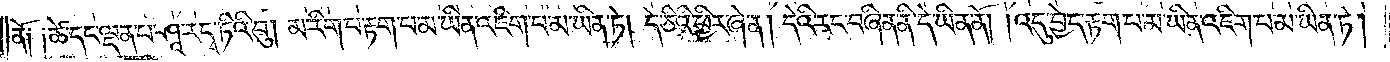ནོ༑ ༑ཚེ་དང་ལྡན་པ་ཤཱ་ར་དྭ་ཏིའི་བུ། མ་རིག་པ་རྟག་པ་མ་ཡིན་འཇིག་པ་མ་ཡིན་ཏེ། དེ་ཅིའི་ཕྱིར་ཞེ་ན། དེའི་རང་བཞིན་ནི་དེ་ཡིན་ནོ། །འདུ་བྱེད་རྟག་པ་མ་ཡིན་འཇིག་པ་མ་ཡིན་ཏེ།
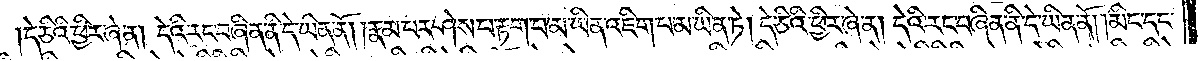དེ་ཅིའི་ཕྱིར་ཞེ་ན། དེའི་རང་བཞིན་ནི་དེ་ཡིན་ནོ། །རྣམ་པར་ཤེས་པ་རྟག་པ་མ་ཡིན་འཇིག་པ་མ་ཡིན་ཏེ། དེ་ཅིའི་ཕྱིར་ཞེ་ན། དེའི་རང་བཞིན་ནི་དེ་ཡིན་ནོ། །མིང་དང་
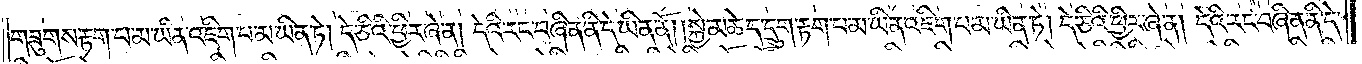གཟུགས་རྟག་པ་མ་ཡིན་འཇིག་པ་མ་ཡིན་ཏེ། དེ་ཅིའི་ཕྱིར་ཞེ་ན། དེའི་རང་བཞིན་ནི་དེ་ཡིན་ནོ། །སྐྱེ་མཆེད་དྲུག་རྟག་པ་མ་ཡིན་འཇིག་པ་མ་ཡིན་ཏེ། དེ་ཅིའི་ཕྱིར་ཞེ་ན། དེའི་རང་བཞིན་ནི་དེ་
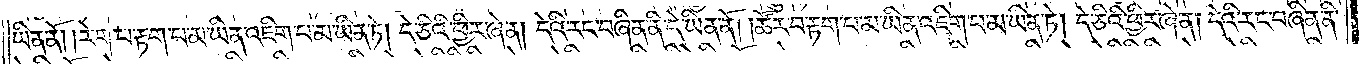ཡིན་ནོ། །རེག་པ་རྟག་པ་མ་ཡིན་འཇིག་པ་མ་ཡིན་ཏེ། དེ་ཅིའི་ཕྱིར་ཞེ་ན། དེའི་རང་བཞིན་ནི་དེ་ཡིན་ནོ། །ཚོར་བ་རྟག་པ་མ་ཡིན་འཇིག་པ་མ་ཡིན་ཏེ། དེ་ཅིའི་ཕྱིར་ཞེ་ན། དེའི་རང་བཞིན་ནི་
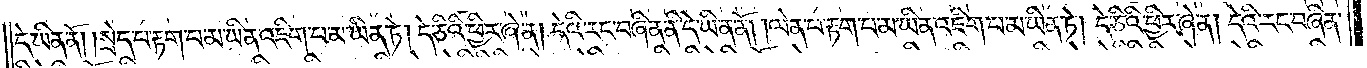དེ་ཡིན་ནོ། །སྲེད་པ་རྟག་པ་མ་ཡིན་འཇིག་པ་མ་ཡིན་ཏེ། དེ་ཅིའི་ཕྱིར་ཞེ་ན། དེའི་རང་བཞིན་ནི་དེ་ཡིན་ནོ། །ལེན་པ་རྟག་པ་མ་ཡིན་འཇིག་པ་མ་ཡིན་ཏེ། དེ་ཅིའི་ཕྱིར་ཞེ་ན། དེའི་རང་བཞིན་
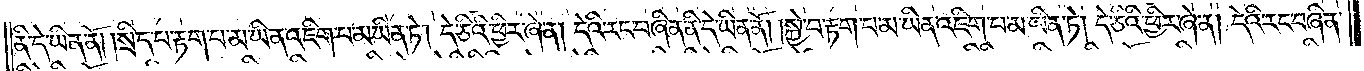ནི་དེ་ཡིན་ནོ། །སྲིད་པ་རྟག་པ་མ་ཡིན་འཇིག་པ་མ་ཡིན་ཏེ། དེ་ཅིའི་ཕྱིར་ཞེ་ན། དེའི་རང་བཞིན་ནི་དེ་ཡིན་ནོ། སྐྱེ་བ་རྟག་པ་མ་ཡིན་འཇིག་པ་མ་ཡིན་ཏེ། དེ་ཅིའི་ཕྱིར་ཞེ་ན། དེའི་རང་བཞིན་
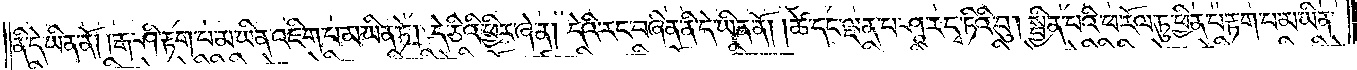ནི་དེ་ཡིན་ནོ། །རྒ་ཤི་རྟག་པ་མ་ཡིན་འཇིག་པ་མ་ཡིན་ཏེ། དེ་ཅིའི་ཕྱིར་ཞེ་ན། དེའི་རང་བཞིན་ནི་དེ་ཡིན་ནོ། །ཚ་དང་ལྡན་པ་ཤཱ་ར་དྭ་ཏིའི་བུ། སྦྱིན་པའི་ཕ་རོལ་ཏུ་ཕྱིན་པ་རྟག་པ་མ་ཡིན་
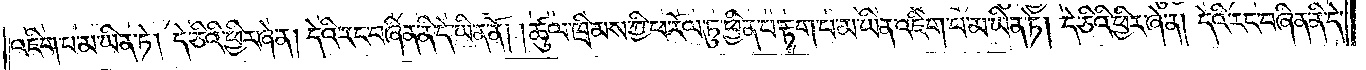འཇིག་པ་མ་ཡིན་ཏེ། དེ་ཅིའི་ཕྱིར་ཞེ་ན། དེའི་རང་བཞིན་ནི་དེ་ཡིན་ནོ། །ཚུལ་ཁྲིམས་ཀྱི་ཕ་རོལ་ཏུ་ཕྱིན་པ་རྟག་པ་མ་ཡིན་འཇིག་པ་མ་ཡིན་ཏེ། དེ་ཅིའི་ཕྱིར་ཞེ་ན། དེའི་རང་བཞིན་ནི་དེ་
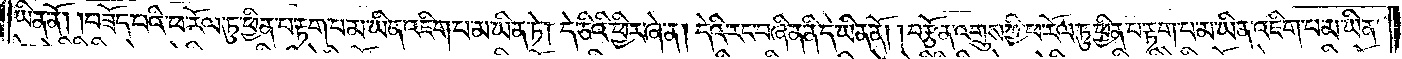ཡིན་ནོ། །བཟོད་པའི་ཕ་རོལ་ཏུ་ཕྱིན་པ་རྟག་པ་མ་ཡིན་འཇིག་པ་མ་ཡིན་ཏེ། དེ་ཅིའི་ཕྱིར་ཞེ་ན། དེའི་རང་བཞིན་ནི་དེ་ཡིན་ནོ། བརྩོན་འགྲུས་ཀྱི་ཕ་རོལ་ཏུ་ཕྱིན་པ་རྟག་པ་མ་ཡིན་འཇིག་པ་མ་ཡིན་
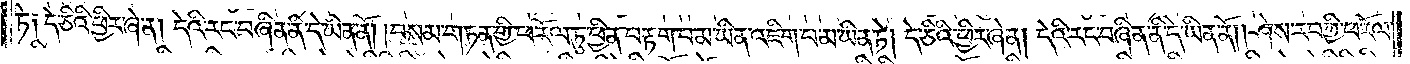ཏེ༑ དེ་ཅིའི་ཕྱིར་ཞེ་ན། དེའི་རང་བཞིན་ནི་དེ་ཡིན་ནོ། །བསམ་གཏན་གྱི་ཕ་རོལ་ཏུ་ཕྱིན་པ་རྟག་པ་མ་ཡིན་འཇིག་པ་མ་ཡིན་ཏེ། དེ་ཅིའི་ཕྱིར་ཞེ་ན། དེའི་རང་བཞིན་ནི་དེ་ཡིན་ནོ། །ཤེས་རབ་ཀྱི་ཕ་རོལ་
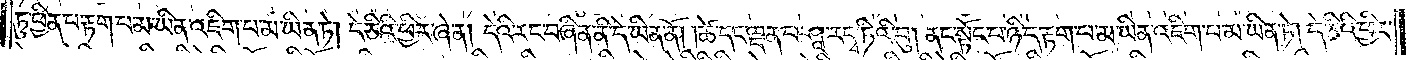ཏུ་ཕྱིན་པ་རྟག་པ་མ་ཡིན་འཇིག་པ་མ་ཡིན་ཏེ། དེ་ཅིའི་ཕྱིར་ཞེ་ན། དེའི་རང་བཞིན་ནི་དེ་ཡིན་ནོ། །ཚེ་དང་ལྡན་པ་ཤཱ་ར་དྭ་ཏིའི་བུ། ནང་སྟོང་པ་ཉིད་རྟག་པ་མ་ཡིན་འཇིག་པ་མ་ཡིན་ཏེ། དེ་ཅིའི་ཕྱིར་
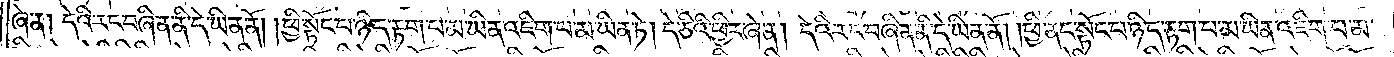ཞེ་ན། དེའི་རང་བཞིན་ནི་དེ་ཡིན་ནོ། །ཕྱི་སྟོང་པ་ཉིད་རྟག་པ་མ་ཡིན་འཇིག་པ་མ་ཡིན་ཏེ། དེ་ཅིའི་ཕྱིར་ཞེ་ན། དེའི་རང་བཞིན་ནི་དེ་ཡིན་ནོ། །ཕྱི་ནང་སྟོང་པ་ཉིད་རྟག་པ་མ་ཡིན་འཇིག་པ་མ་
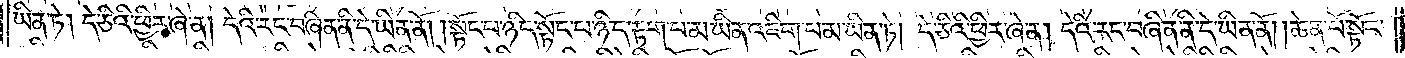ཡིན་ཏེ། དེ་ཅིའི་ཕྱིར་ཞེ་ན། དེའི་རང་བཞིན་ནི་དེ་ཡིན་ནོ། །སྟོང་པ་ཉིད་སྟོང་པ་ཉིད་རྟག་པ་མ་ཡིན་འཇིག་པ་མ་ཡིན་ཏེ། དེ་ཅིའི་ཕྱིར་ཞེ་ན། དེའི་རང་བཞིན་ནི་དེ་ཡིན་ནོ། །ཆེན་པོ་སྟོང་
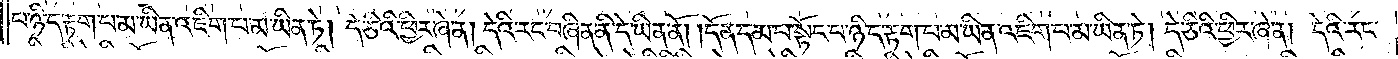པ་ཉིད་རྟག་པ་མ་ཡིན་འཇིག་པ་མ་ཡིན་ཏེ། དེ་ཅིའི་ཕྱིར་ཞེ་ན། དེའི་རང་བཞིན་ནི་དེ་ཡིན་ནོ། །དོན་དམ་པ་སྟོང་པ་ཉིད་རྟག་པ་མ་ཡིན་འཇིག་པ་མ་ཡིན་ཏེ། དེ་ཅིའི་ཕྱིར་ཞེ་ན། དེའི་རང་
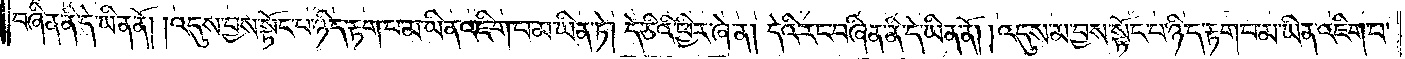བཞིན་ནི་དེ་ཡིན་ནོ། །འདུས་བྱས་སྟོང་པ་ཉིད་རྟག་པ་མི་ཡན་འཇིག་པ་མ་ཡིན་ཏེ། དེ་ཅིའི་ཕྱིར་ཞེ་ན། དེའི་རང་བཞིན་ནི་དེ་ཡིན་ནོ། །འདུས་མ་བྱས་སྟོང་པ་ཉིད་རྟག་པ་མ་ཡིན་འཇིག་པ་
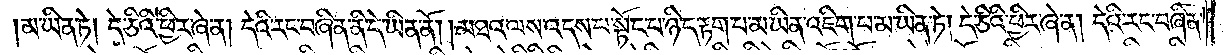མ་ཡིན་ཏེ། དེ་ཅིའི་ཕྱིར་ཞེ་ན། དེའི་རང་བཞིན་ནི་དེ་ཡིན་ནོ། །མཐའ་ལས་འདས་པ་སྟོང་པ་ཉིད་རྟག་པ་མ་ཡིན་འཇིག་པ་མ་ཡིན་ཏེ། དེ་ཅིའི་ཕྱིར་ཞེ་ན། དེའི་རང་བཞིན་
